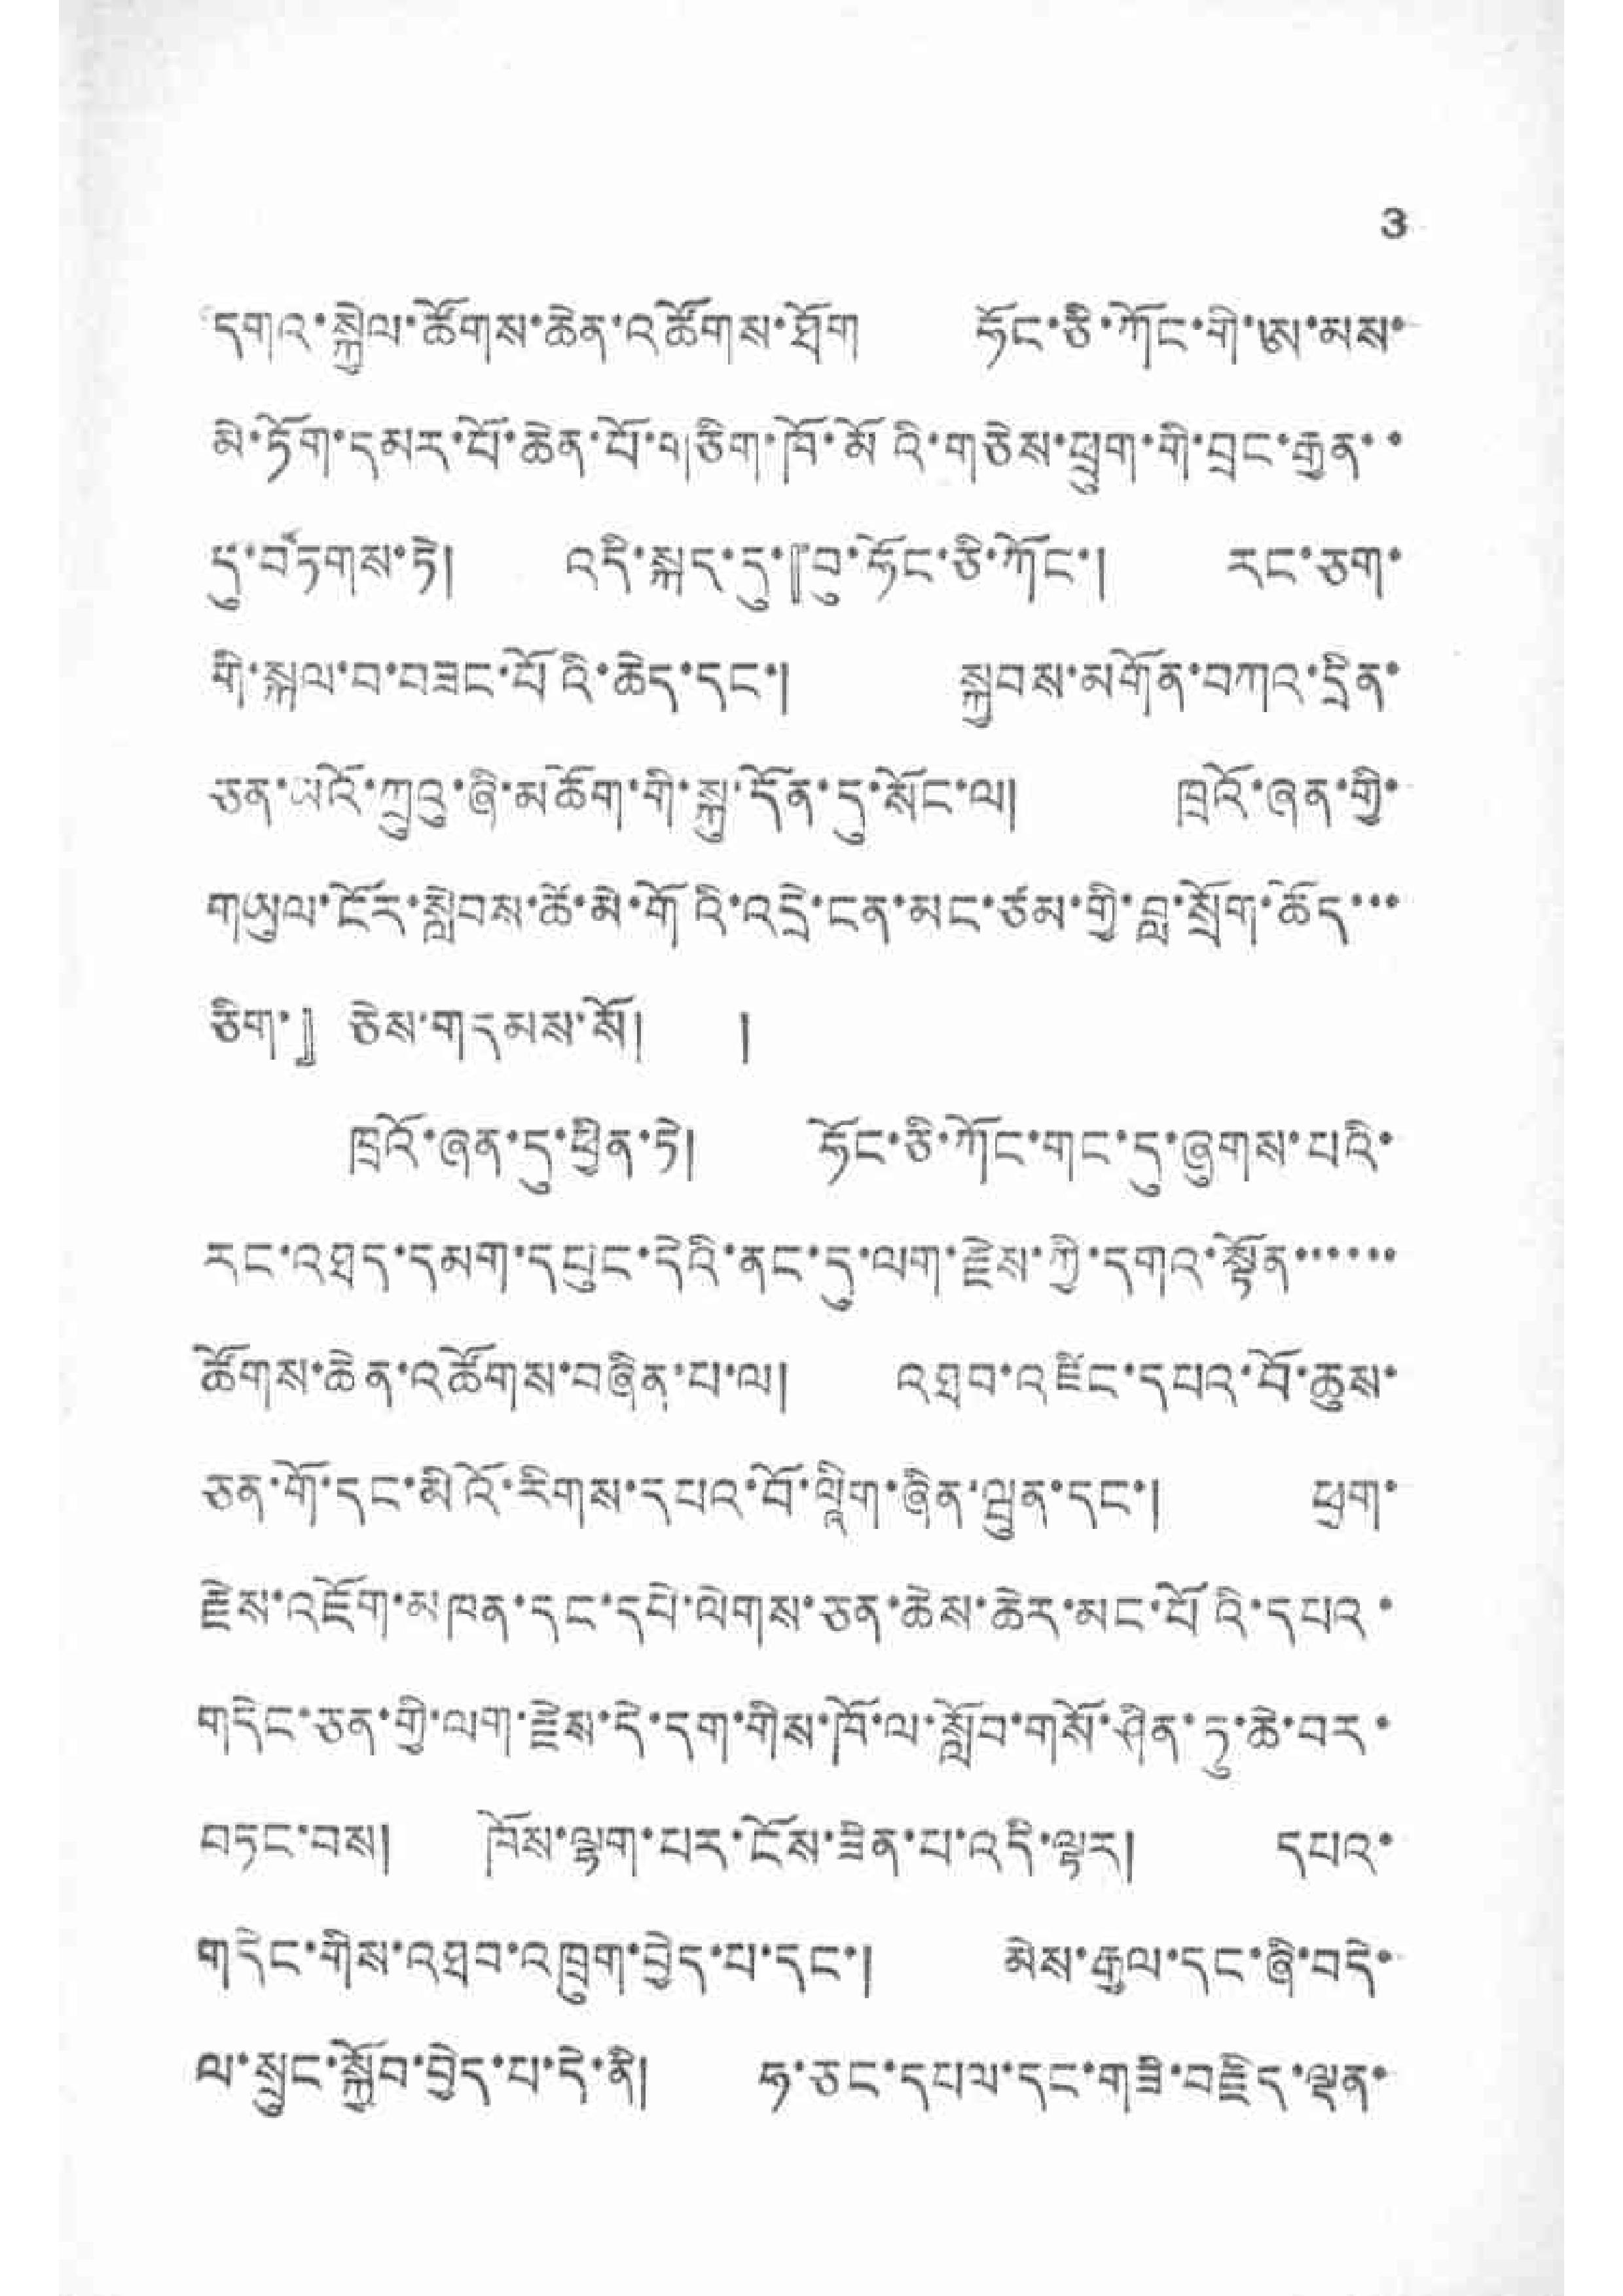3
དགའ་སྐྱེལ་ཚོགས་ཆེན་འཚོགས་ཐོག ཧོང་ཅི་ཀོང་གི་ཨ་མས་
མེ་ཏོག་དམར་བོ་ཆེན་པོ་གཅིག་ཁོ་མོའི་གཅེས་ཕྲུག་གི་བྲང་རྒྱན་་
དུ་བཏགས་ཏེ། འདི་སྐད་དུ་『བུ་ཏོང་ཅི་ཀོང་། དང་ཅག་
གི་སྐལ་བ་བཟང་པོའི་ཆེད་དང་། སྐྱབས་མགོན་བཀའ་དྲིན་
ཅན་མའོ་ཀྲུའུ་ཞི་མཆོག་གི་སྐུ་དོན་དུ་སོང་ལ། ཁྲའོ་ཞན་གྱི་
གཡུལ་ངོར་སླེབས་ཚེ་མི་གོའི་འདྲེ་ངན་མང་ཙམ་གྱི་བླ་སྲོག་ཆོད་་་
ཅིག་』 ཅེས་གདམས་སོ། །
ཁྲའོ་ཞན་དུ་ཕྱིན་ཏེ། ཧོང་ཅི་ཀོང་གང་དུ་ཞུགས་པའི་
དང་འཐད་དམག་དཔུང་དེའི་ནང་དུ་ལག་རྗེས་ཀྱི་དགའ་སྟོན་་་་་་་
ཚོགས་ཆེན་འཚོགས་བཞིན་པ་ལ། འཐབ་འཛིང་དཔའ་བོ་ཆུས་
ཅན་གོ་དང་མིའོ་རིགས་དཔའ་བོ་ལཱིག་ཞིན་ཝུན་དང་། ཕྱག་
རྗེས་འཇོག་མཁན་དང་དཔེ་ལེགས་ཅན་ཆེས་ཆེད་མང་པོའི་དཔའ་
གདེང་ཅན་གྱི་ལག་རྗེས་དེ་དག་གིས་ཁོ་ལ་སློབ་གསོ་ཤིན་ཏུ་ཆེ་བར་
བཏང་བས། ཁོས་ལྷག་པར་ངོས་ཟིན་པ་འདི་ལྟར། དཔའ་
གདེང་གིས་འཐབ་འཁྲུག་བྱེད་པ་དང་། མེས་རྒྱལ་དང་ཞི་བདེ་
ལ་སྲུང་སྐྱོབ་བྱེད་པ་དེ་ནི། ཧ་ཅང་དཔལ་དང་གཟི་བརྗིད་ལྡན་
